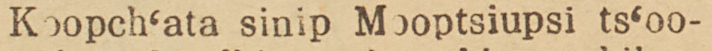Koopch'ata sinip Mooptsiupsi ts'oo-
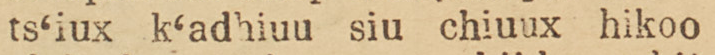ts'iux k'adhiuu siu chiuux hikoo
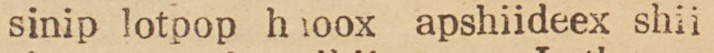sinip lotpop h oox apshiideex shii
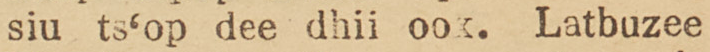siu ts'op dee dhii oox. Latbuzee
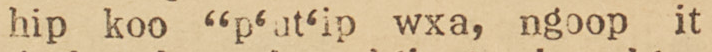hip koo "p'ut'ip wxa, ngoop it
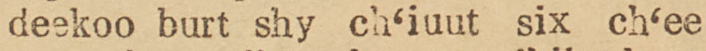deekoo burt shy ch'iuut six ch'ee
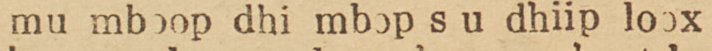mu mboop dhi mbop s u dhiip loox
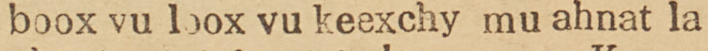boox vu loox vu keexchy mu ahnat la
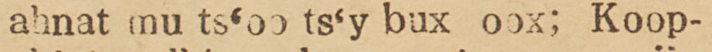ahnat mu ts'oo ts'y bux oox; Koop-
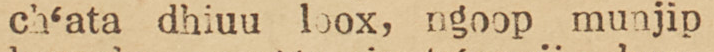ch'ata dhiuu loox, ngoop munjip
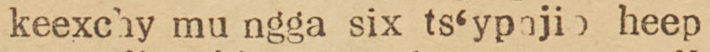keexchy mu ngga six ts'ypnjip heep
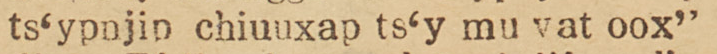ts'ypnjip chiuuxap ts'y mu vat oox"
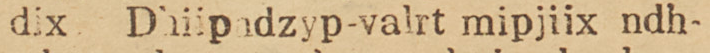dix. Dhiipndzyp-valrt mipjiix ndh-
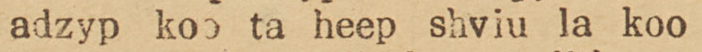adzyp koo ta heep shviu la koo
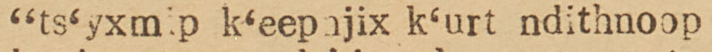"ts'yxmip k'eepnjix k'urt ndithnoop
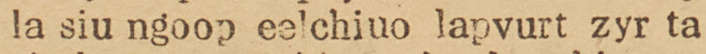la siu ngoop eelchiuo lapvurt zyr ta
